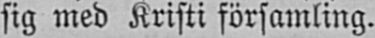sig med Kristi församling.
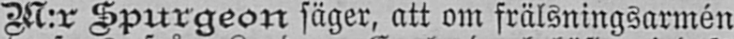M:r Spurgeon säger, att om frälsningsarmén
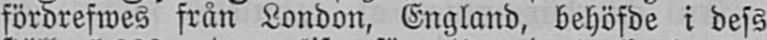fördrefwes från London, England, behöfde i dess
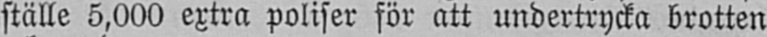ställe 5,000 extra poliser för att undertrycka brotten
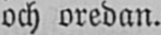och oredan.
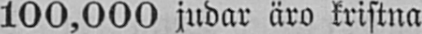100,000 judar äro kristna.
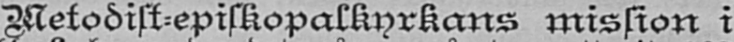Metodist-episkopalkyrkans mission i
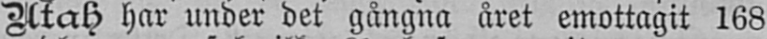Utah har under det gångna året emottagit 168
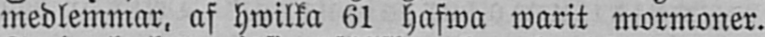medlemmar, af hwilka 61 hafwa warit mormoner.
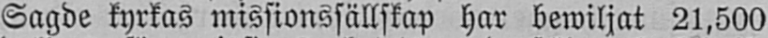Sagde kyrkas missionssällskap har bewiljat 21,500
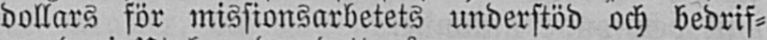dollars för missionsarbetets understöd och bedrif-
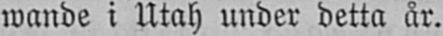wande i Utah under detta år.
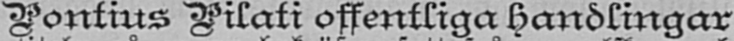Pontius Pilati offentliga handlingar
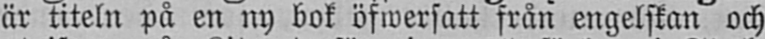är titeln på en ny bok öfwersatt från engelskan och
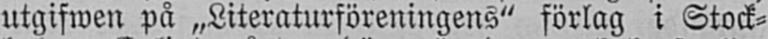utgifwen på „Literaturföreningens" förlag i Stock-
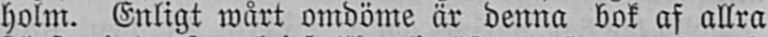holm. Enligt wårt omdöme är denna bok af allra
